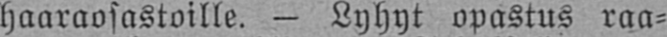haaraosastoille. — Lyhyt opastus raa-
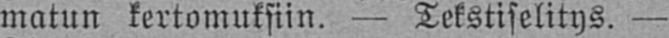matun kertomuksiin. — Tekstiselitys. —
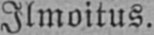Ilmoitus.
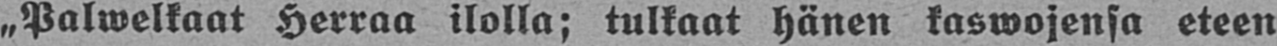„Palwelkaat Herraa ilolla; tulkaat hänen kaswojensa eteen
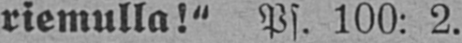riemulla!" Ps. 100: 2.
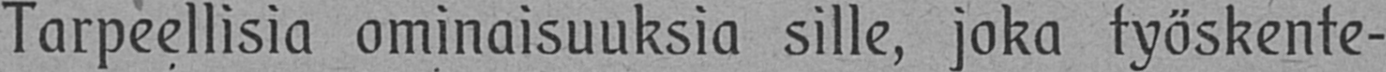Tarpeellisia ominaisuuksia sille, joka työskente-
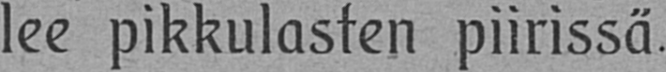lee pikkulasten piirissä.
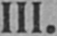III.
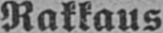Rakkaus.
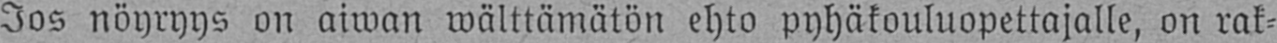Jos nöyryys on aiwan wälttämätön ehto pyhäkouluopettajalle, on rak-
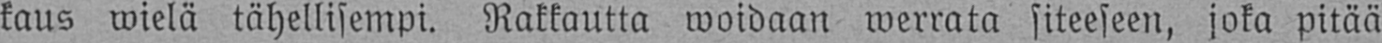kaus wielä tähellisempi. Rakkautta woidaan werrata siteeseen, joka pitää
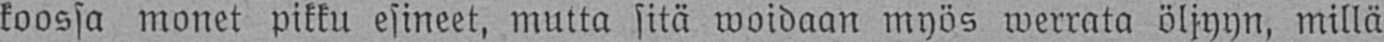koossa monet pikku esineet, mutta sitä woidaan myös werrata öljyyn, millä
